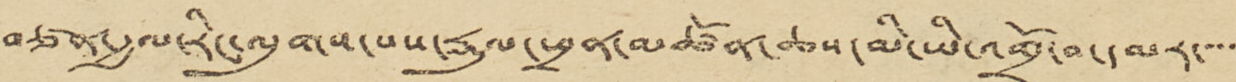བཙན་རྒྱལ་རིང་ལུགས་པས་རྡུལ་ཕྲན་མཚོན་ཆས་མི་ཡི་འགྲོ་བ་དམར་་་་་
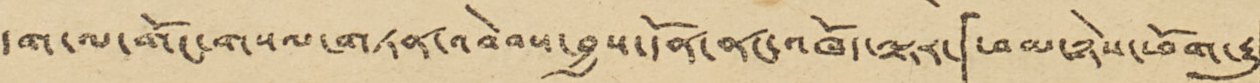དག་ལ་གོང་གསལ་གཏན་འབེབས་བྱས་དོན་ནང་འཁོད་ལྟར་「ཕམ་ཉེས་ཕོག་རྒྱུ་」
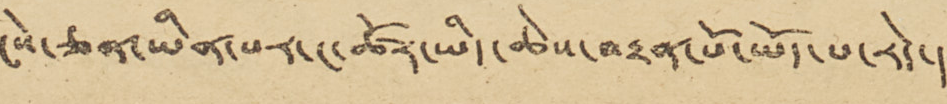ངེས་ཅན་ཡིན་པར་ང་ཚོར་ཡིད་ཆེས་བརྟན་པོ་ཡོད་པ་རེད་།
